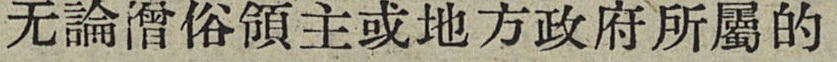無論僧俗領主或地方政府所屬的
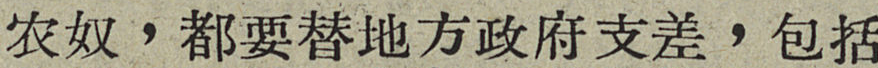农奴，都要替地方政府支差，包括
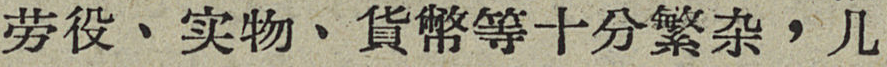劳役、实物、貨幣等十分繁杂，几
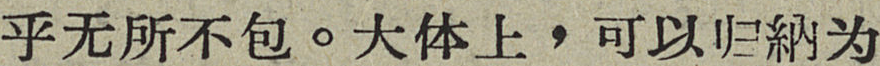乎无所不包。大体上，可以归納为
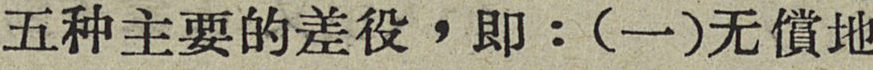五种主要的差役，即：（一）无償地
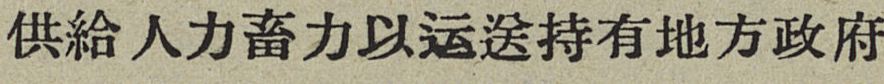供給人力畜力一运送持有地方政府
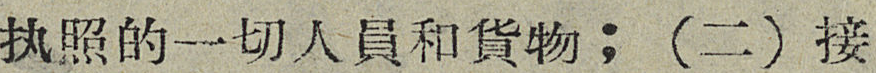执照的一切人員和貨物；（二）接
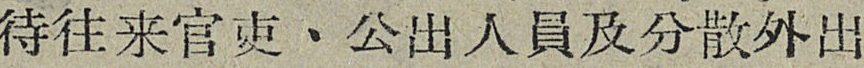待往来官吏、公出人員及分散外出
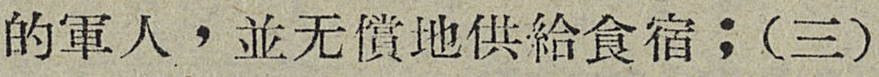的軍人，並无償地供給食宿；（三）
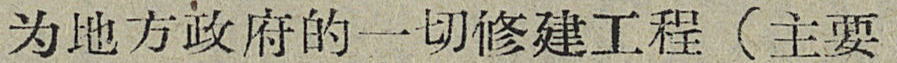为地方政府的一切修建工程（主要
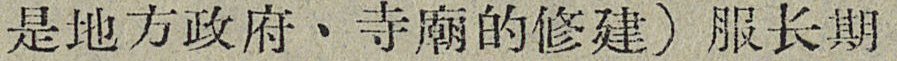是地方政府、寺廟的修建）服长期
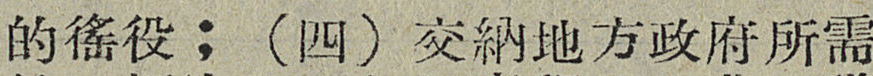的徭役；（四）交納地方政府所需
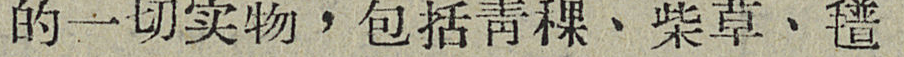的一切实物，包括靑稞、柴草、氆
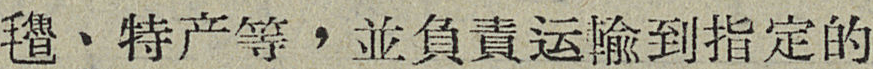氌、特产等，並負責运輸到指定的
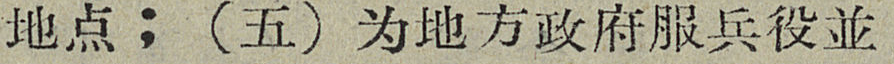地点；（五）为地方政府服兵役並
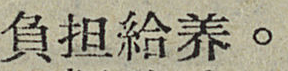負担給养。
